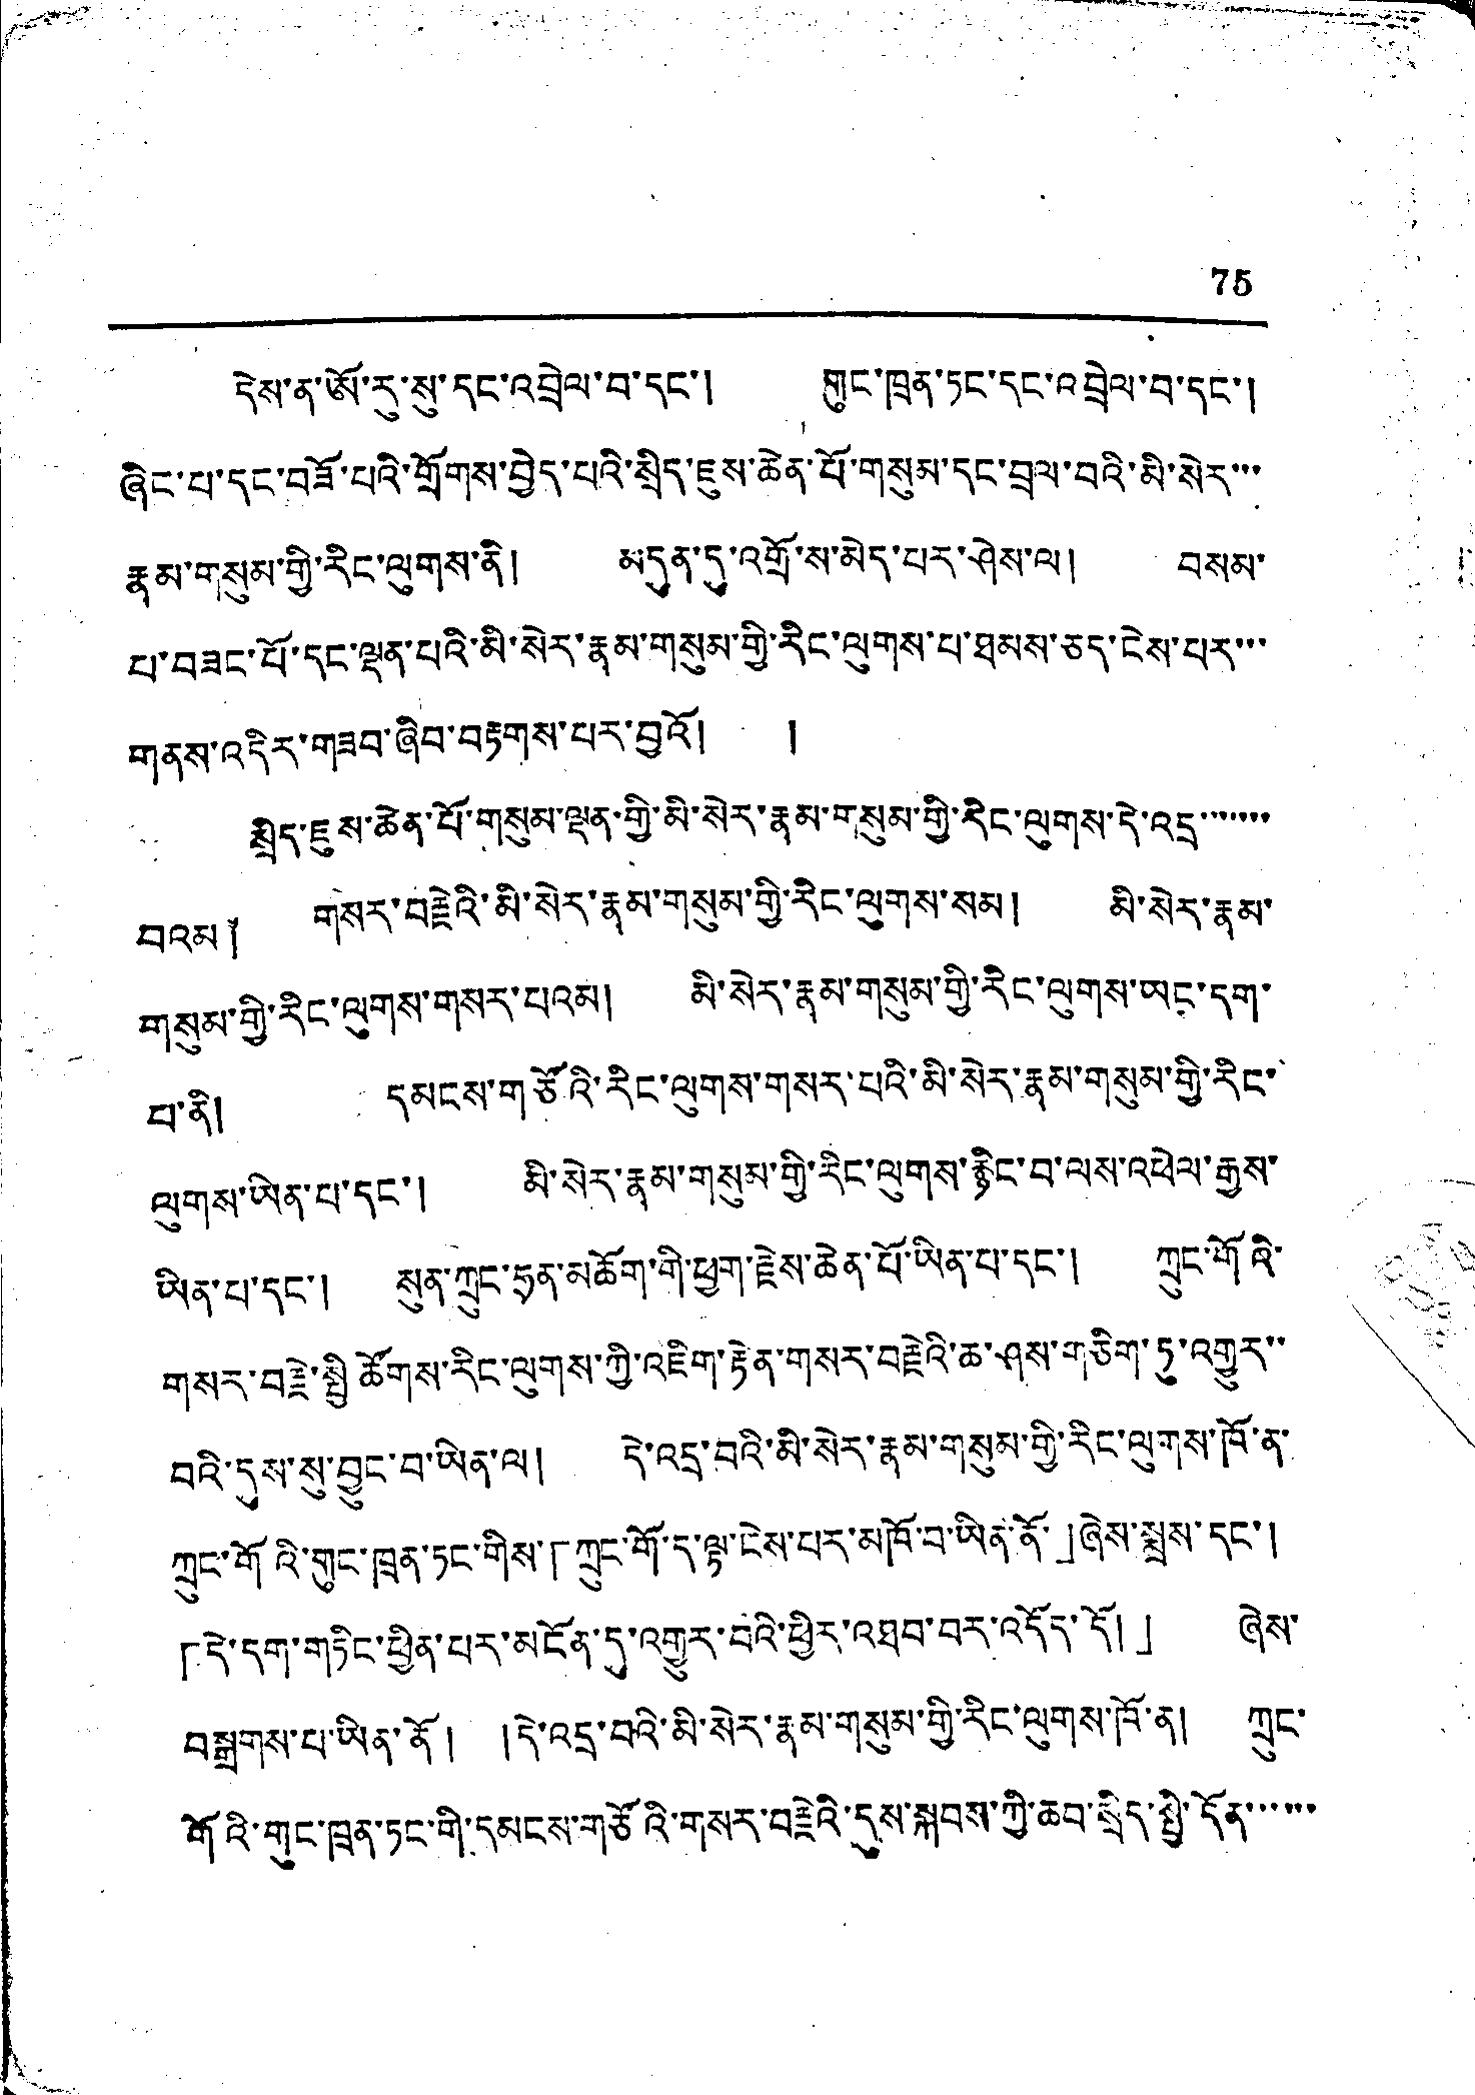75
དེས་ན་ཨོ་རུ་སུ་དང་འབྲེལ་བ་དང་། གུང་ཁྲན་ཏང་དང་འབྲེལ་བ་དང་།
ཞིང་པ་དང་བཟོ་པའི་གྲོགས་བྱེད་པའི་སྲིད་ཇུས་ཆེན་པོ་གསུམ་དང་བྲལ་བའི་མི་སེར་་་
རྣམ་གསུམ་གྱི་རིང་ལུགས་ནི། མདུན་དུ་འགྲོ་ས་མེད་པར་ཤེས་ལ། བསམ་
པ་བཟང་པོ་དང་ལྡན་པའི་མི་སེར་རྣམ་གསུམ་གྱི་རིང་ལུགས་པ་ཐམས་ཅད་ངེས་པར་་་
གནས་འདིར་གཟབ་ཞིབ་བརྟགས་པར་བྱའོ། །
སྲིད་ཇུས་ཆེན་པོ་གསུམ་ལྡན་གྱི་མི་སེར་རྣམ་གསུམ་གྱི་རིང་ལུགས་དེ་འདྲ་་་་་་་
བའམ༐ གསར་བརྗེའི་མི་སེར་རྣམ་གསུམ་གྱི་རིང་ལུགས་སམ། མི་སེར་རྣམ་
གསུམ་གྱི་རིང་ལུགས་གསར་པའམ། མི་སེར་རྣམ་གསུམ་གྱི་རིང་ལུགས་ཡང་དག་
པ་ནི། དམངས་གཙོའི་རིང་ལུགས་གསྲ་པའི་མི་སེར་རྣམ་གསུམ་གྱི་རིང་
ལུགས་ཡིན་པ་དང་། མི་སེར་རྣམ་གསུམ་གྱི་རིང་ལུགས་རྙིང་བ་ལས་འཕེལ་རྒྱུས་
ཡིན་པ་དང་། སུན་ཀྲུང་ཧྲན་མཆོག་གི་ཕྱག་རྗེས་ཆེན་པོ་ཡིན་པ་དང་། ཀྲུང་གོའི་
གསར་བརྗེ་སྤྱི་ཚོགས་རིང་ལུགས་ཀྱི་འཇིག་རྟེན་གསར་བརྗེའི་ཆ་ཤས་གཅིག་ཏུ་འགྱུར་་
བའི་དུས་སུ་བྱུང་བ་ཡིན་ལ། དེ་འདྲ་བའི་མི་སེར་རྣམ་གསུམ་གྱི་རིང་ལུགས་ཁོ་ན་
ཀྲུང་གོའི་གུང་ཁྲན་ཏང་གིས་「ཀྲུང་གོ་ད་ལྟ་ངེས་པར་མཁོ་བ་ཡིན་ནོ་」ཞེས་སྨྲས་དང་།
「དེ་དག་གཏིང་ཕྱིན་པར་མངོན་དུ་འགྱུར་བའི་ཕྱིར་འཐབ་བར་འདོད་དོ།」 ཞེས་
བསྒྲགས་པ་ཡིན་ནོ། །དེ་འདྲ་བའི་མི་སེར་རྣམ་གསུམ་གྱི་རིང་ལུགས་ཁོ་ན། ཀྲུང་
གོའི་གུང་ཁྲན་ཏང་གི་དམངས་གཙོའི་གསར་བརྗེའི་དུས་སྐབས་ཀྱི་ཆབ་སྲིད་སྤྱི་དོན་་་་་་
